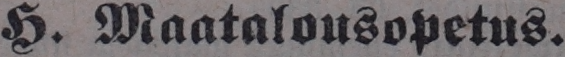H. Maatalousopetus.
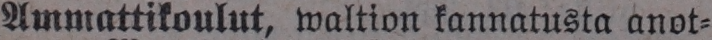Ammattikoulut, waltion kannatusta anot-
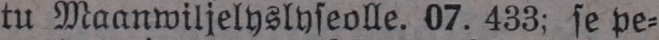tu Maanwiljelyslyseolle. 07. 433; se pe-
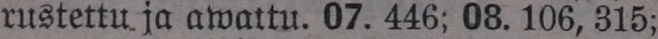rustettu ja awattu. 07. 446; 08. 106, 315;
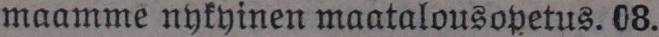maamme nykyinen maatalousopetus. 08.
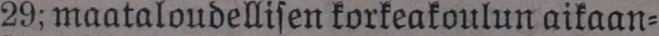29; maataloudellisen korkeakoulun aikaan-
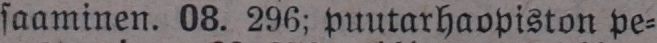saaminen. 08. 296; puutarhaopiston pe-
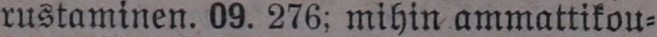rustaminen. 09. 276; mihin ammattikou-
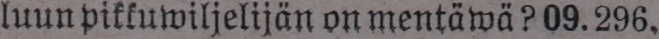luun pikkuwiljelijän on mentäwä? 09. 296,
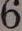6
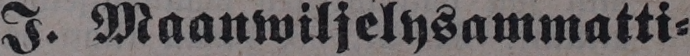I. Maanwiljelysammatti-
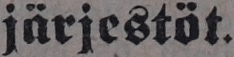järjestöt.
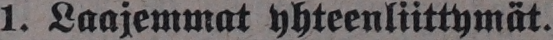1. Laajemmat yhteenliittymät.
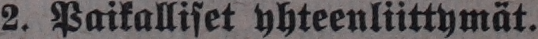2. Paikalliset yhteenliittymät.
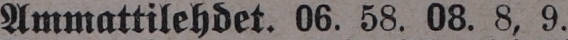Ammattilehdet. 06. 58. 08. 8, 9.
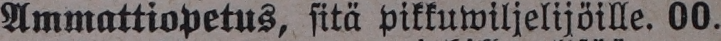Ammattiopetus, sitä pikkuwiljelijöille. 00.
